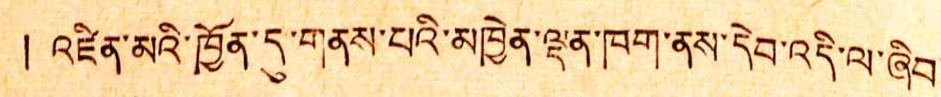༄༅། ། འཛིན་མའི་ཁྱོན་དུ་གནས་པའི་མཁྱེན་ལྡན་ཁག་ནས་དེབ་འདི་ལ་ཞིབ་
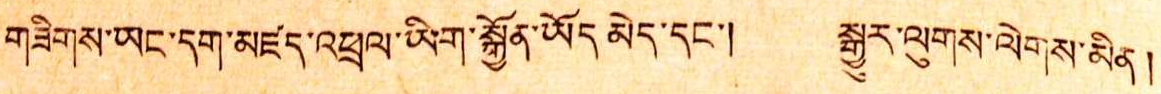གཟིགས་ཡང་དག་མཛད་འཕྲལ་ཡིག་སྒྱོན་ཡོད་མེད་དང་། སྒྱུར་ལུགས་ལེགས་མིན།
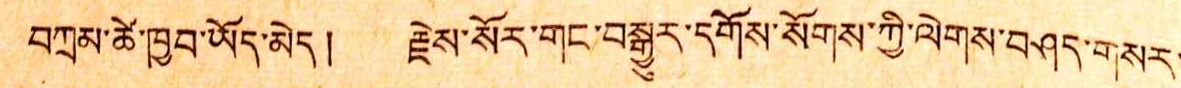བཀྲམ་ཚེ་ཁྱབ་ཡོད་མེད། རྗེས་སོར་གང་བསྒྱུར་དགོས་སོགས་གྱི་ལེགས་བཤད་གསར་
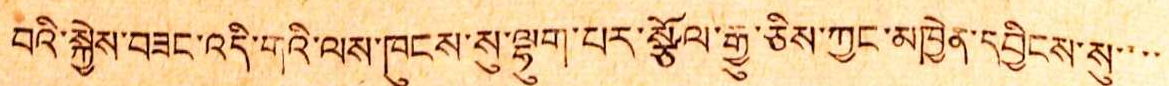བའི་སྐྱེས་བཟང་འདི་གའི་ལས་ཁུངས་སུ་ལྷུག་པར་སྩོལ་རྒྱུ་ཅིས་ཀྱང་མཁྱེན་དབྱིངས་སུ་་་་
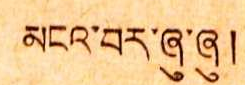མནགའ་བར་ཞུ་ཞུ།
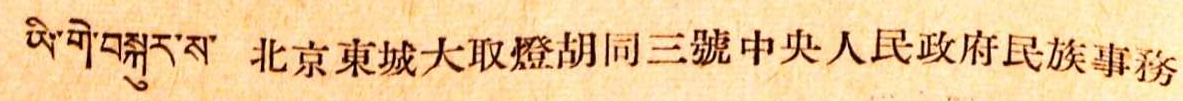ཡི་གེ་བསྐུར་ས་ 北京東城大取燈胡同三號中央人民政府民族事務
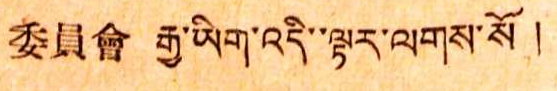委員會 རྒྱ་ཡིག་འདི་ལྟར་ལགས་སོ། །
